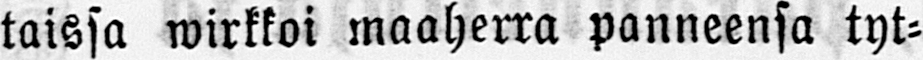taissa wirkkoi maaherra panneensa tyt-
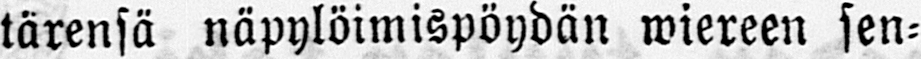tärensä näpylöimispöydän wiereen sen-
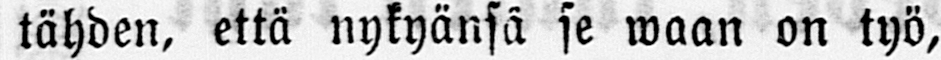tähden, että nykyänsä se waan on työ,
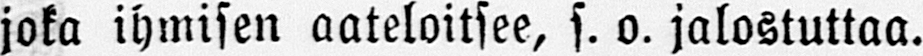joka ihmisen aateloitsee, s. o. jalostuttaa.
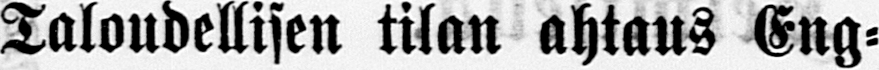Taloudellisen tilan ahtaus Eng-
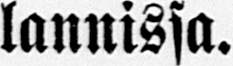lannissa.
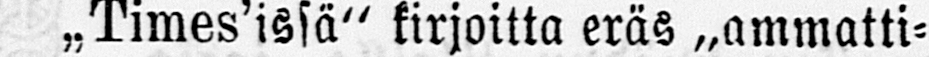„Times'issä" kirjoitta eräs „ammatti-
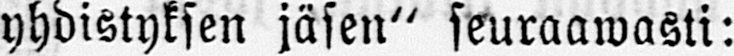yhdistyksen jäsen" seuraawasti:
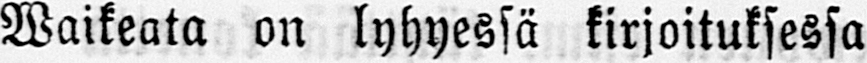Waikeata on lyhyessä kirjoituksessa
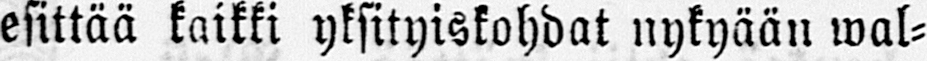esittää kaikki yksityiskohdat nykyään wal-
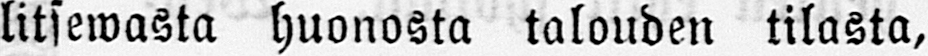litsewasta huonosta talouden tilasta,
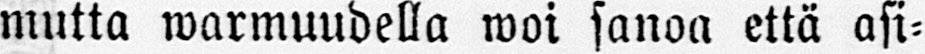mutta warmuudella woi sanoa että asi-
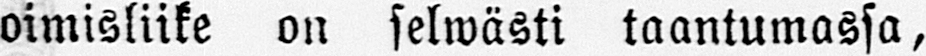oimisliike on selwästi taantumassa,
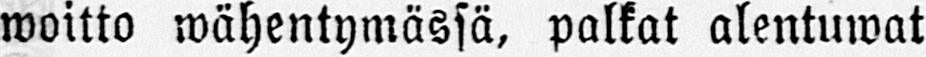woitto wähentymässä, palkat alentuwat
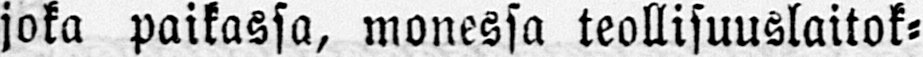joka paikassa, monessa teollisuuslaitok-
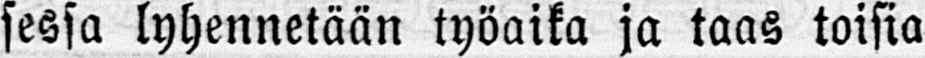sessa lyhennetään työaika ja taas toisia
